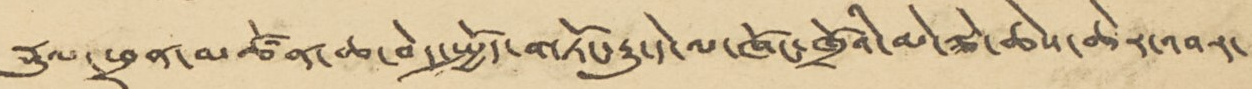རྡུལ་ཕྲན་མཚོན་ཆ་བེད་སྤྱོད་གཏོང་རྒྱུ་དེ་ལ་ཁོང་ཁྲོའི་མེ་ལྕེ་ཆེས་ཆེར་འབར་
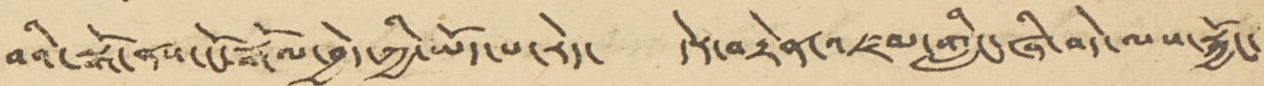བའི་སྒོ་ནས་ངོ་རྒོལ་བྱེད་ཀྱི་ཡོད་པ་རེད་ དེར་བརྟེན་འཛམ་གླིང་ཞི་བདེ་ལས་སྐྱོང་
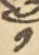༡
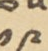༡༩
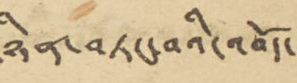ཉིན་བཏང་བའི་འབོད་
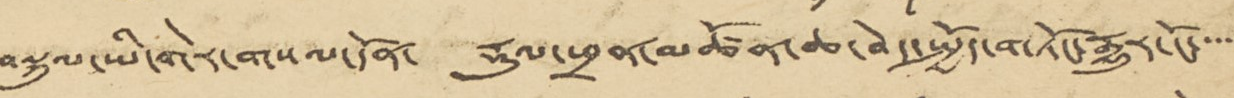བལྐུལ་ཡི་གེར་གསལ་དོན་ རྡུལ་ཕྲན་མཚོན་ཆ་བེད་སྤྱོད་གཏོང་རྒྱུར་ངོ་་་་་
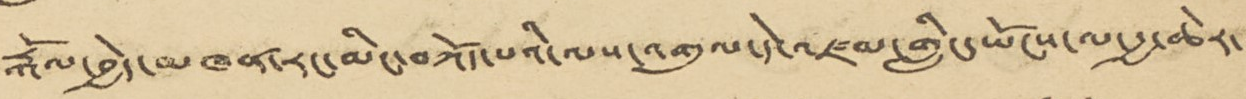རྒོལ་བྱེད་མཁན་རང་མིང་བཀོད་པའི་ལས་འགུལ་དེ་འཛམ་གླིང་ཡོངས་ལ་རྒྱ་ཆེར་
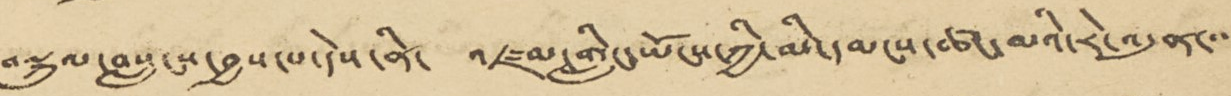བསྐུལ་བསླངས་བྱས་པ་དེས་ནི་ འཛམ་གླིང་ཡོངས་ཀྱི་མི་དམངས་ཚང་མའི་རེ་འདུན་་་
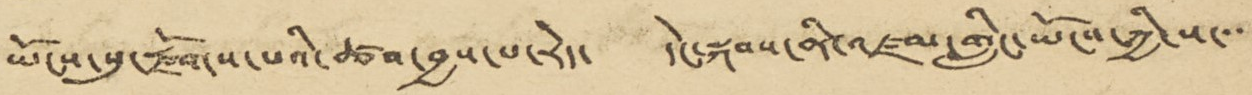ཡོངས་སུ་རྫོགས་པའི་ཚབ་བྱས་པ་རེད་ དེངས་སྐབས་ནི་འཛམ་གླིང་ཡོངས་ཀྱི་ས་་་་
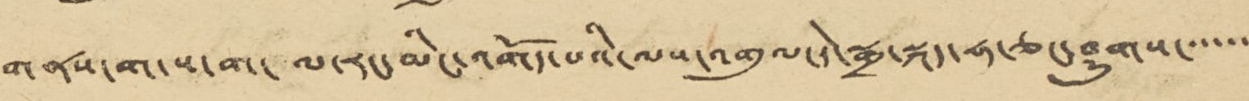གནས་ག་ས་ག་ལ་རང་མིང་འགོད་པའི་ལས་འགུལ་དེ་སྒྲ་སྐད་ཧ་ཅང་ཤུགས་་་་་་
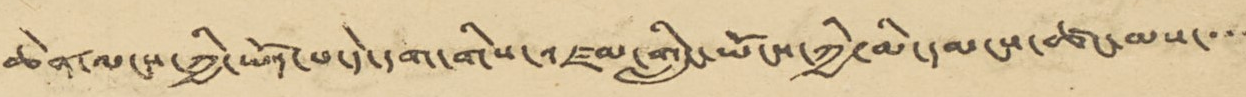ཆེན་ལངས་ཀྱི་ཡོད་པ་དེ་དག་གིས་འཛམ་གླིང་ཡོངས་ཀྱི་མི་དམངས་ཚང་མས་་་་
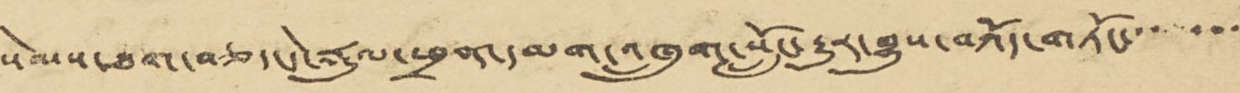སེམས་ཐག་བཅད་དེ་རྡུལ་ཕྲན་དམག་འཁྲུག་སློང་རྒྱུར་བྱུས་བཀོད་གཏོང་་་་་་་
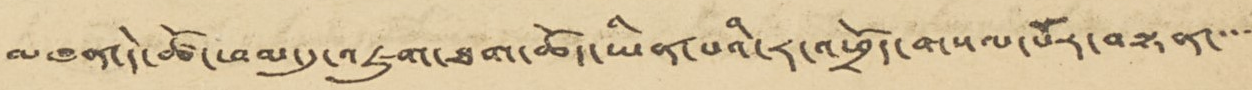མཁན་དེ་ཚོ་ཕམ་དུ་འཇུག་ཐག་ཆོད་ཡིན་པའི་ར་འཕྲོད་གསལ་པོར་བསྟན་་་་་
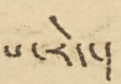པ་རེད་།
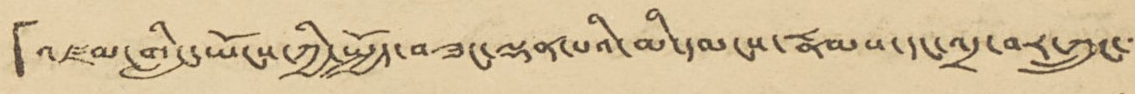「འཛམ་གླིང་ཡོངས་ཀྱི་སྤྱོད་བཟང་ལྡན་པའི་མི་དམངས་རྣམས་དང་འདྲ་བར་ཀྲུང་་་
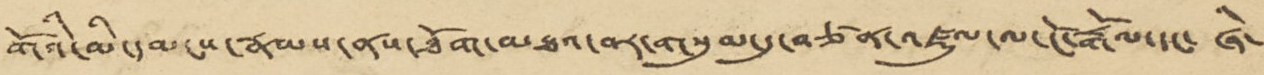གོའི་མི་དམངས་རྣམས་ནས་ཐོག་མཐའ་བར་གསུམ་དུ་བཙན་འཛུལ་ལ་ངོ་རྒོལ་དང་ ཞི་
